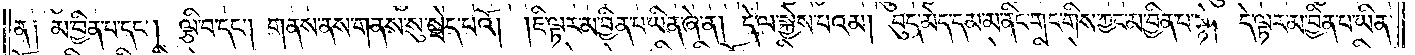ན༑ མ་བྱིན་པ་དང༌། ལྕི་བ་དང༌། གནས་ནས་གནས་སུ་སྦེད་པའོ། །ཇི་ལྟར་མ་བྱིན་པ་ཡིན་ཞེ་ན། དེ་ལ་སྐྱེས་པའམ། བུད་མེད་དམ་མ་ནིང་གང་གིས་ཀྱང་མ་བྱིན་པ་སྟེ། དེ་ལྟར་མ་བྱིན་པ་ཡིན་
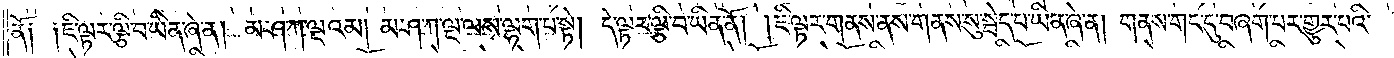ནོ༑ ༑ཇི་ལྟར་ལྕི་བ་ཡིན་ཞེ་ན། མ་ཤ་ཀ་ལྔའམ། མ་ཤ་ཀ་ལྔ་ལས་ལྷག་པ་སྟེ། དེ་ལྟར་ལྕི་བ་ཡིན་ནོ། །ཇི་ལྟར་གནས་ནས་གནས་སུ་སྦེད་པ་ཡིན་ཞེ་ན། གནས་གང་དུ་བཞག་པར་གྱུར་པའི་
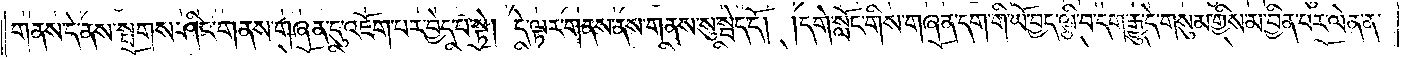གནས་དེ་ནས་སྤགས་ཤིང་གནས་གཞན་དུ་འཇོག་པར་བྱེད་པ་སྟེ། དེ་ལྟར་གནས་ནས་གནས་སུ་སྦེད་དོ། །དགེ་སློང་གིས་གཞན་དག་གི་ཡོ་བྱད་ལྕི་བ་དག་རྒྱུ་དེ་གསུམ་གྱིས་མ་བྱིན་པར་ལེན་ན་
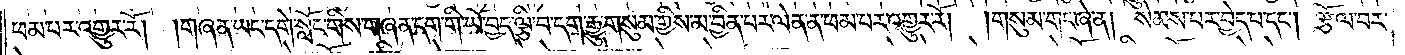ཕམ་པར་འགྱུར་རོ། །གཞན་ཡང་དགེ་སློང་གིས་གཞན་དག་གི་ཡོ་བྱད་ལྕི་བ་དག་རྒྱུ་གསུམ་གྱིས་མ་བྱིན་པར་ལེན་ན་ཕམ་པར་འགྱུར་རོ། །གསུམ་གང་ཞེ་ན། སེམས་པར་བྱེད་པ་དང༌། རྩོལ་བར་
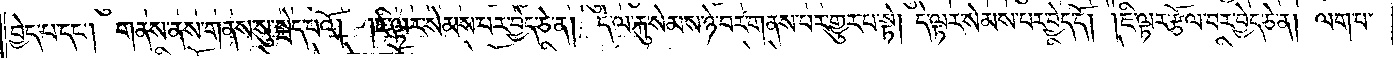བྱེད་པ་དང༌། གནས་ནས་གནས་སུ་སྦེད་པའོ། །ཇི་ལྟར་སེམས་པར་བྱེད་ཅེ་ན། དེ་ལ་རྐུ་སེམས་ཉེ་བར་གནས་པར་གྱུར་པ་སྟེ། དེ་ལྟར་སེམས་པར་བྱེད་དོ། །ཇི་ལྟར་རྩོལ་བར་བྱེད་ཅེ་ན། ལག་པ་
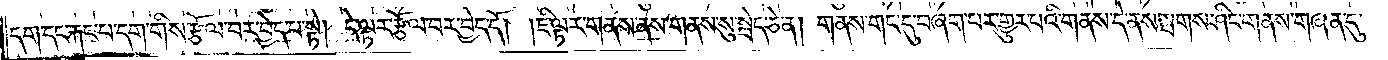དག་དང་རྐང་པ་དག་གིས་རྩོལ་བར་བྱེད་པ་སྟེ། དེ་ལྟར་རྩོལ་བར་བྱེད་དོ། །ཇི་ལྟར་གནས་ནས་གནས་སུ་སྦེད་ཅེ་ན། གནས་གང་དུ་བཞག་པར་གྱུར་པའི་གནས་དེ་ནས་སྤགས་ཤིང་གནས་གཞན་དུ་
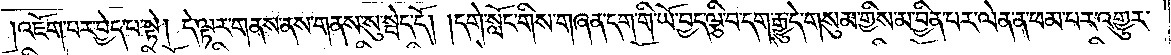།འཇོག་པར་བྱེད་པ་སྟེ། དེ་ལྟར་གནས་ནས་གནས་སུ་སྦེད་དོ། །དགེ་སློང་གིས་གཞན་དག་གི་ཡོ་བྱད་ལྕི་བ་དག་རྒྱུ་དེ་གསུམ་གྱིས་མ་བྱིན་པར་ལེན་ན་ཕམ་པར་འགྱུར་
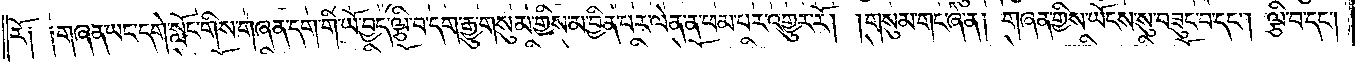རོ༑ ༑གཞན་ཡང་དགེ་སློང་གིས་གཞན་དག་གི་ཡོ་བྱད་ལྕི་བ་དག་རྒྱུ་གསུམ་གྱིས་མ་བྱིན་པར་ལེན་ན་ཕམ་པར་འགྱུར་རོ། །གསུམ་གང་ཞེ་ན། གཞན་གྱིས་ཡོངས་སུ་བཟུང་བ་དང༌། ལྕི་བ་དང༌།
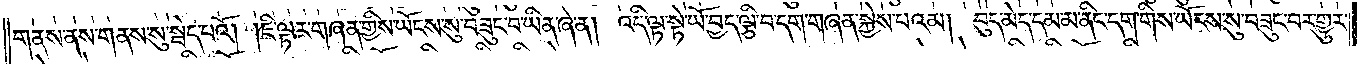གནས་ནས་གནས་སུ་སྦེད་པའོ། །ཇི་ལྟར་གཞན་གྱིས་ཡོངས་སུ་བཟུང་བ་ཡིན་ཞེ་ན། འདི་ལྟ་སྟེ་ཡོ་བྱད་ལྕི་བ་དག་གཞན་སྐྱེས་པའམ། བུད་མེད་དམ་མ་ནིང་དག་གིས་ཡོངས་སུ་བཟུང་བར་གྱུར་
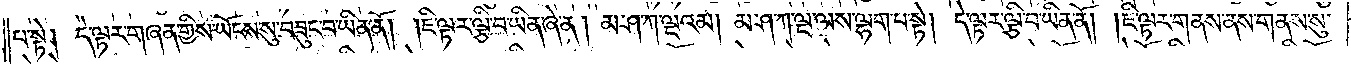པ་སྟེ། དེ་ལྟར་གཞན་གྱིས་ཡོངས་སུ་བཟུང་བ་ཡིན་ནོ། །ཇི་ལྟར་ལྕི་བ་ཡིན་ཞེ་ན། མ་ཤ་ཀ་ལྔའམ། མ་ཤ་ཀ་ལྔ་ལས་ལྷག་པ་སྟེ། དེ་ལྟར་ལྕི་བ་ཡིན་ནོ། །ཇི་ལྟར་གནས་ནས་གནས་སུ་
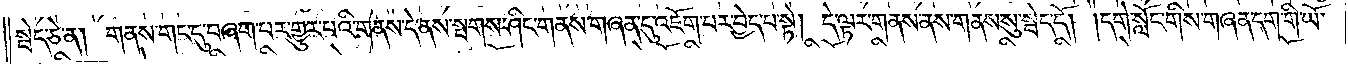སྦེད་ཅེ་ན། གནས་གང་དུ་བཞག་པར་གྱུར་པའི་གནས་དེ་ནས་སྤགས་ཤིང་གནས་གཞན་དུ་འཇོག་པར་བྱེད་པ་སྟེ། དེ་ལྟར་གནས་ནས་གནས་སུ་སྦེད་དོ། །དགེ་སློང་གིས་གཞན་དག་གི་ཡོ་
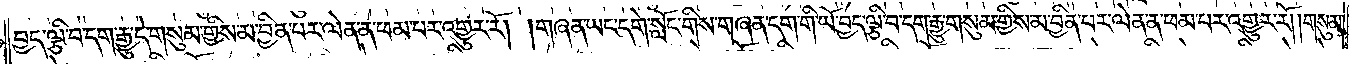བྱད་ལྕི་བ་དག་རྒྱུ་དེ་གསུམ་གྱིས་མ་བྱིན་པར་ལེན་ན་ཕམ་པར་འགྱུར་རོ། །གཞན་ཡང་དགེ་སློང་གིས་གཞན་དག་གི་ཡོ་བྱད་ལྕི་བ་དག་རྒྱུ་གསུམ་གྱིས་མ་བྱིན་པར་ལེན་ན་ཕམ་པར་འགྱུར་རོ། །གསུམ་
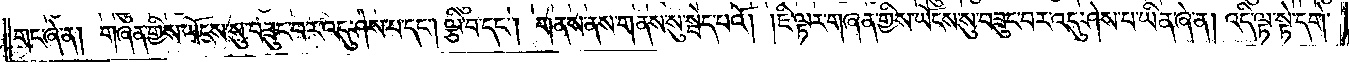གང་ཞེ་ན། གཞན་གྱིས་ཡོངས་སུ་བཟུང་བར་འདུ་ཤེས་པ་དང༌། ལྕི་བ་དང༌། གནས་ནས་གནས་སུ་སྦེད་པའོ། །ཇི་ལྟར་གཞན་གྱིས་ཡོངས་སུ་བཟུང་བར་འདུ་ཤེས་པ་ཡིན་ཞེ་ན། འདི་ལྟ་སྟེ་དགེ་
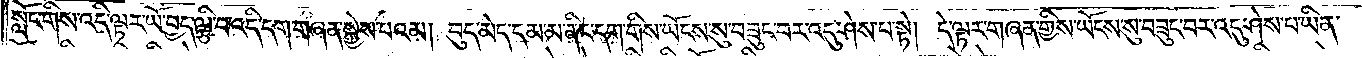སློང་གིས་འདི་ལྟར་ཡོ་བྱད་ལྕི་བ་འདི་དག་གཞན་སྐྱེས་པའམ། བུད་མེད་དམ་མ་ནིང་དག་གིས་ཡོངས་སུ་བཟུང་བར་འདུ་ཤེས་པ་སྟེ། དེ་ལྟར་གཞན་གྱིས་ཡོངས་སུ་བཟུང་བར་འདུ་ཤེས་པ་ཡིན་
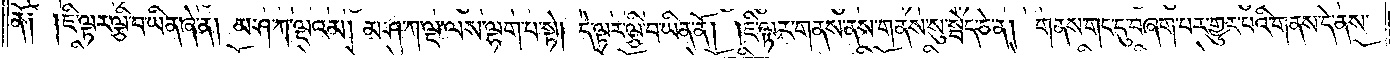ནོ༑ །ཇི་ལྟར་ལྕི་བ་ཡིན་ཞེ་ན། མ་ཤ་ཀ་ལྔའམ། མ་ཤ་ཀ་ལྔ་ལས་ལྷག་པ་སྟེ། དེ་ལྟར་ལྕི་བ་ཡིན་ནོ། །ཇི་ལྟར་གནས་ནས་གནས་སུ་སྦེད་ཅེ་ན། གནས་གང་དུ་བཞག་པར་གྱུར་པའི་གནས་དེ་ནས་
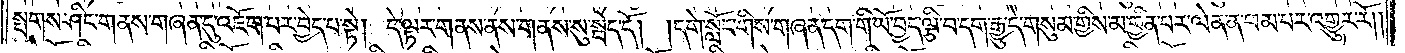སྤགས་ཤིང་གནས་གཞན་དུ་འཇོག་པར་བྱེད་པ་སྟེ། དེ་ལྟར་གནས་ནས་གནས་སུ་སྦེད་དོ། །དགེ་སློང་གིས་གཞན་དག་གི་ཡོ་བྱད་ལྕི་བ་དག་རྒྱུ་དེ་གསུམ་གྱིས་མ་བྱིན་པར་ལེན་ན་ཕམ་པར་འགྱུར་རོ༎
